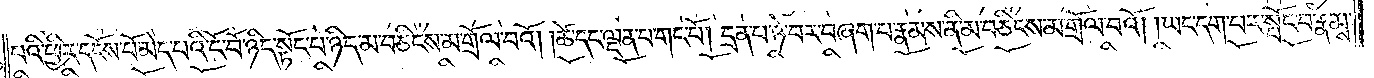པའི་ཕྱིར་དངོས་པོ་མེད་པའི་ངོ་བོ་ཉིད་སྟོང་པ་ཉིད་མ་བཅིངས་མ་གྲོལ་བའོ། །ཚེ་དང་ལྡན་པ་གང་པོ། དྲན་པ་ཉེ་བར་བཞག་པ་རྣམས་ནི་མ་བཅིངས་མ་གྲོལ་བའོ། །ཡང་དག་པར་སྤོང་བ་རྣམས་
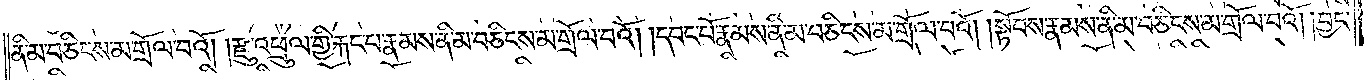ནི་མ་བཅིངས་མ་གྲོལ་བའོ། །རྫུ་འཕྲུལ་གྱི་རྐང་པ་རྣམས་ནི་མ་བཅིངས་མ་གྲོལ་བའོ། །དབང་པོ་རྣམས་ནི་མ་བཅིངས་མ་གྲོལ་བའོ། །སྟོབས་རྣམས་ནི་མ་བཅིངས་མ་གྲོལ་བའོ། །བྱང་
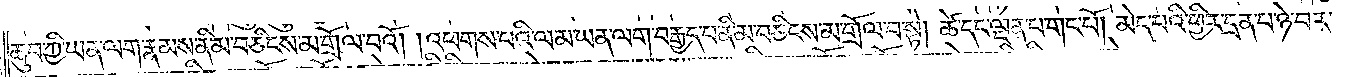ཆུབ་ཀྱི་ཡན་ལག་རྣམས་ནི་མ་བཅིངས་མ་གྲོལ་བའོ། །འཕགས་པའི་ལམ་ཡན་ལག་བརྒྱད་པ་ནི་མ་བཅིངས་མ་གྲོལ་བ་སྟེ། ཚེ་དང་ལྡན་པ་གང་པོ། མེད་པའི་ཕྱིར་དྲན་པ་ཉེ་བར་
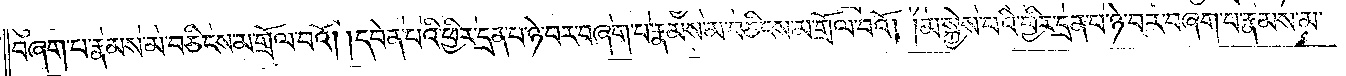བཞག་པ་རྣམས་མ་བཅིངས་མ་གྲོལ་བའོ། །དབེན་པའི་ཕྱིར་དྲན་པ་ཉེ་བར་བཞག་པ་རྣམས་མ་བཅིངས་མ་གྲོལ་བའོ། །མ་སྐྱེས་པའི་ཕྱིར་དྲན་པ་ཉེ་བར་བཞག་པ་རྣམས་མ་
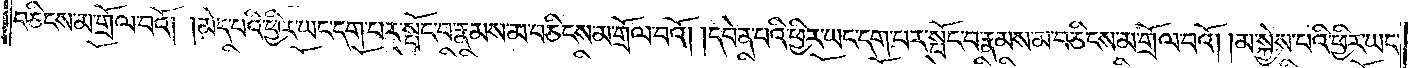བཅིངས་མ་གྲོལ་བའོ། །མེད་པའི་ཕྱིར་ཡང་དག་པར་སྤོང་བ་རྣམས་མ་བཅིངས་མ་གྲོལ་བའོ། །དབེན་པའི་ཕྱིར་ཡང་དག་པར་སྤོང་བ་རྣམས་མ་བཅིངས་མ་གྲོལ་བའོ། །མ་སྐྱེས་པའི་ཕྱིར་ཡང་
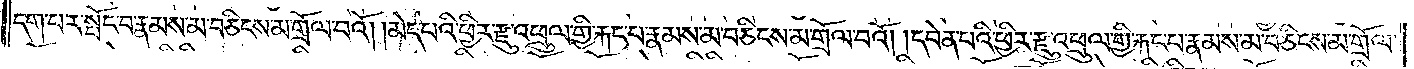དག་པར་སྤོང་བ་རྣམས་མ་བཅིངས་མ་གྲོལ་བའོ། །མེད་པའི་ཕྱིར་རྫུ་འཕྲུལ་གྱིས་རྐང་པ་རྣམས་མ་བཅིངས་མ་གྲོལ་བའོ། །དབེན་པའི་ཕྱིར་རྫུ་འཕྲུལ་གྱི་རྐང་པ་རྣམས་མ་བཅིངས་མ་གྲོལ་
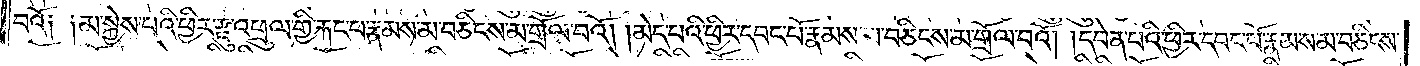བའོ། །མ་སྐྱེས་པའི་ཕྱིར་རྫུ་འཕྲུལ་གྱི་རྐང་པ་རྣམས་མ་བཅིངས་མ་གྲོལ་བའོ། །མེད་པའི་ཕྱིར་དབང་པོ་རྣམས་མ་བཅིངས་མ་གྲོལ་བའོ། །དབེན་པའི་ཕྱིར་དབང་པོ་རྣམས་མ་བཅིངས་
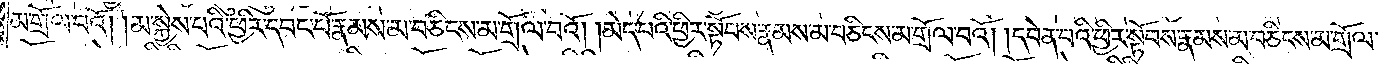མ་གྲོལ་བའོ། །མ་སྐྱེས་པའི་ཕྱིར་དབང་པོ་རྣམས་མ་བཅིངས་མ་གྲོལ་བའོ། །མེད་པའི་ཕྱིར་སྟོབས་རྣམས་མ་བཅིངས་མ་གྲོལ་བའོ། །དབེན་པའི་ཕྱིར་སྟོབས་རྣམས་མ་བཅིངས་མ་གྲོལ་
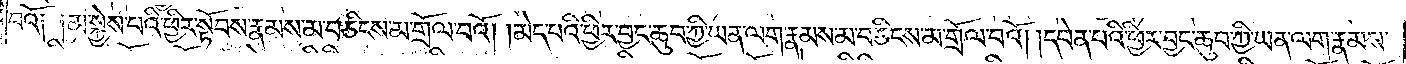བའོ༑ ༑མ་སྐྱེས་པའི་ཕྱིར་སྟོབས་རྣམས་མ་བཅིངས་མ་གྲོལ་བའོ། །མེད་པའི་ཕྱིར་བྱང་ཆུབ་ཀྱི་ཡན་ལག་རྣམས་མ་བཅིངས་མ་གྲོལ་བའོ། །དབེན་པའི་ཕྱིར་བྱང་ཆུབ་ཀྱི་ཡན་ལག་རྣམས་
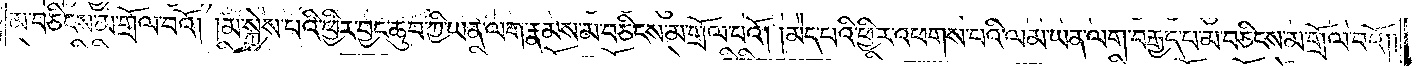མ་བཅིངས་མ་གྲོལ་བའོ། །མ་སྐྱེས་པའི་ཕྱིར་བྱང་ཆུབ་ཀྱི་ཡན་ལག་རྣམས་མ་བཅིངས་མ་གྲོལ་བའོ། །མེད་པའི་ཕྱིར་འཕགས་པའི་ལམ་ཡན་ལག་བརྒྱད་པ་མ་བཅིངས་མ་གྲོལ་བའོ། །
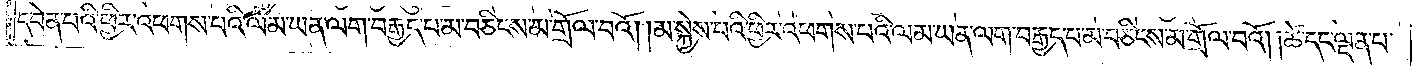དབེན་པའི་ཕྱིར་འཕགས་པའི་ལམ་ཡན་ལག་བརྒྱད་པ་མ་བཅིངས་མ་གྲོལ་བའོ། །མ་སྐྱེས་པའི་ཕྱིར་འཕགས་པའི་ལམ་ཡན་ལག་བརྒྱད་པ་མ་བཅིངས་མ་གྲོལ་བའོ། །ཚེ་དང་ལྡན་པ་
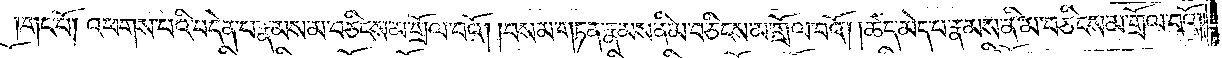གང་པོ། འཕགས་པའི་བདེན་པ་རྣམས་མ་བཅིངས་མ་གྲོལ་བའོ། །བསམ་གཏན་རྣམས་ནི་མ་བཅིངས་མ་གྲོལ་བའོ། །ཚད་མེད་པ་རྣམས་ནི་མ་བཅིངས་མ་གྲོལ་བའོ། །
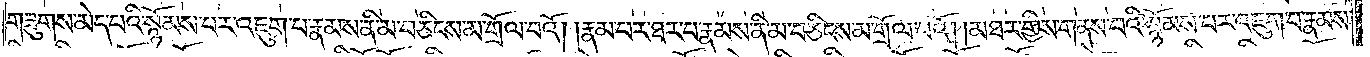གཟུགས་མེད་པའི་སྙོམས་པར་འཇུག་པ་རྣམས་ནི་མ་བཅིངས་མ་གྲོལ་བའོ། །རྣམ་པར་ཐར་པ་རྣམས་ནི་མ་བཅིངས་མ་གྲོལ་བའོ། །མཐར་གྱིས་གནས་པའི་སྙོམས་པར་འཇུག་པ་རྣམས་
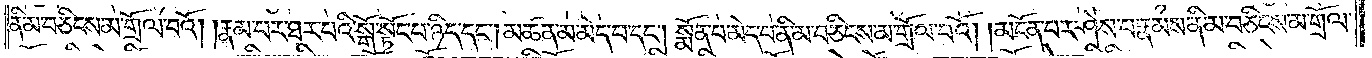ནི་མ་བཅིངས་མ་གྲོལ་བའོ། །རྣམ་པར་ཐར་པའི་སྒོ་སྟོང་པ་ཉིད་དང༌། མཚན་མ་མེད་པ་དང༌། སྨོན་པ་མེད་པ་ནི་མ་བཅིངས་མ་གྲོལ་པའོ། །མངོན་པར་ཤེས་པ་རྣམས་ནི་མ་བཅིངས་མ་གྲོལ་
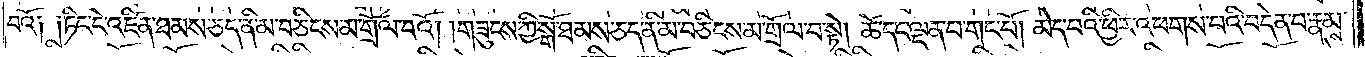བའོ༑ ༑ཏིང་ངེ་འཛིན་ཐམས་ཅད་ནི་མ་བཅིངས་མ་གྲོལ་བའོ། ། གཟུངས་ཀྱི་སྒོ་ཐམས་ཅད་ནི་མ་བཅིངས་མ་གྲོལ་བ་སྟེ། ཚེ་དང་ལྡན་པ་གང་པོ། མེད་པའི་ཕྱིར་འཕགས་པའི་བདེན་པ་རྣམས་
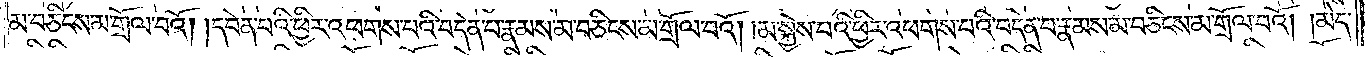མ་བཅིངས་མ་གྲོལ་བའོ། །དབེན་པའི་ཕྱིར་འཕགས་པའི་བདེན་པ་རྣམས་མ་བཅིངས་མ་གྲོལ་བའོ། །མ་སྐྱེས་པའི་ཕྱིར་འཕགས་པའི་བདེན་པ་རྣམས་མ་བཅིངས་མ་གྲོལ་བའོ། །མེད་
